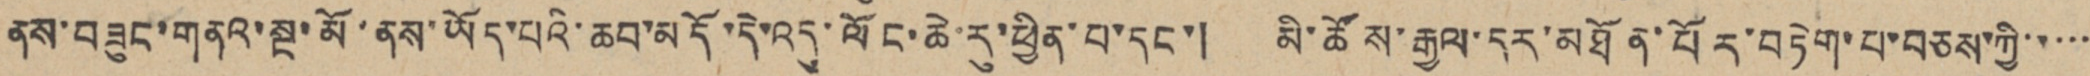ནས་བཟུང་གནའ་སྔ་མོ་ནས་ཡོད་པའི་ཆབ་མདོ་དེ་འདུ་ལོང་ཆེ་རུ་ཕྱིན་པ་དང་། མི་ཚོས་རྒྱལ་དར་མཐོན་པོར་བཏེག་པ་བཅས་ཀྱི་་་་་
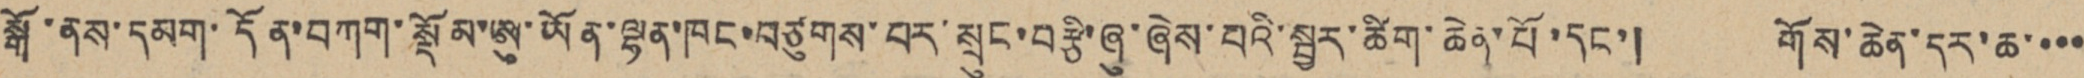སྒོ་ནས་དམག་དོན་བཀག་སྡོམ་ཨུ་ཡོན་ལྷན་ཁང་བཙུགས་པར་སྲུང་བརྩི་ཞུ་ཞེས་པའི་སྦྱར་ཚིག་ཆེན་པོ་དང་། གོས་ཆེན་དར་ཆ་་་་
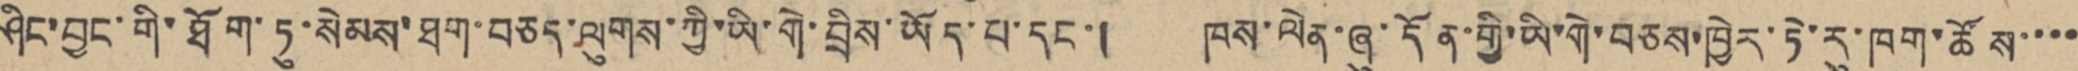ཤིང་བྱང་གི་ཐོག་ཏུ་སེམས་ཐག་བཅད་ལུགས་ཀྱི་ཡི་གེ་བྲིས་ཡོད་པ་དང་། ཁས་ལེན་ཞུ་དོན་གྱི་ཡི་གེ་བཅས་ཁྱེར་ཏེ་རུ་ཁག་ཚོས་་་་
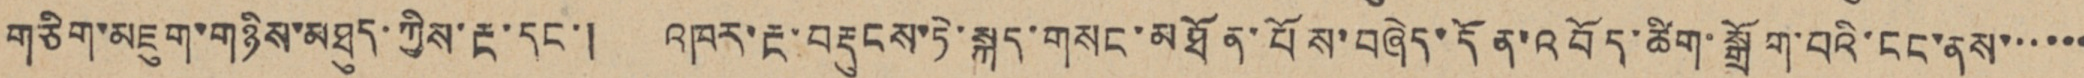གཅིག་མཇུག་གཉིས་མཐུད་ཀྱིས་རྔ་དང་། འཁར་རྔ་བརྡུངས་ཏེ་སྐད་གསང་མཐོན་པོས་བཞེད་དོན་འབོད་ཚིག་སྒྲོག་པའི་ངང་ནས་་་་་་
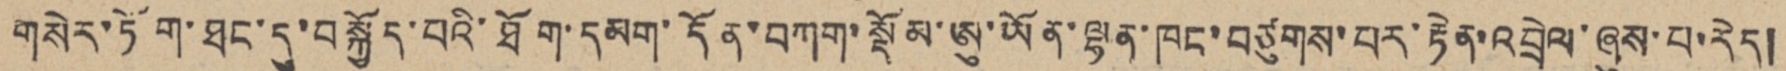གསེར་ཏོག་ཐང་དུ་བསྐྱོད་པའི་ཐོག་དམག་དོན་བཀག་སྡོམ་ཨུ་ཡོན་ལྷན་ཁང་བཙུགས་པར་རྟེན་འབྲེལ་ཞུས་པ་རེད།
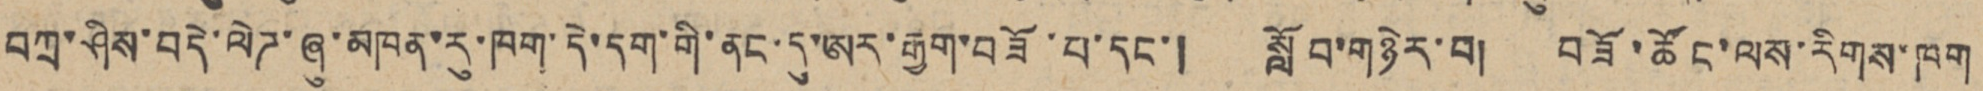བཀྲ་ཤིས་བདེ་ལེཊ་ཞུ་མཁན་རུ་ཁག་དེ་དག་གི་ནང་དུ་ཨར་རྒྱག་བཟོ་པ་དང་། སློབ་གཉེར་བ། བཟོ་ཚོང་ལས་རིགས་ཁག
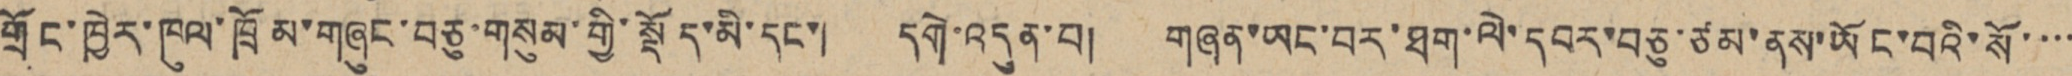གྲོང་ཁྱེར་ཁུལ་ཁྲོམ་གཞུང་བཅུ་གསུམ་གྱི་སྡོད་མི་དང་། དགེ་འདུན་བ། གཞན་ཡང་བར་ཐག་ལེ་དབར་བཅུ་ཙམ་ནས་ཡོང་བའི་སོ་་་་
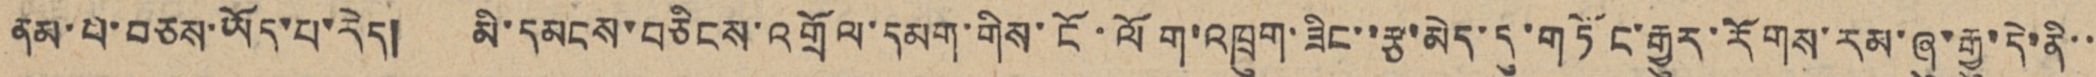ནམ་པ་བཅས་ཡོད་པ་རེད། མི་དམངས་བཅིངས་འགྲོལ་དམག་གིས་ངོ་ལོག་འཁྲུག་ཟིང་་རྩ་མེད་དུ་གཏོང་རྒྱུར་རོགས་རམ་ཞུ་རྒྱུ་དེ་ནི་་
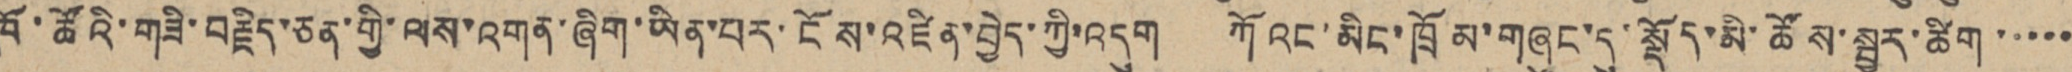ཁོ་ཚོའི་གཟི་བརྗིད་ཅན་གྱི་ལས་འགན་ཞིག་ཡིན་པར་ངོས་འཛིན་བྱེད་ཀྱི་འདུག ཀོའང་མིང་ཁྲོམ་གཞུང་དུ་སྡོད་མི་ཚོས་སྦྱར་ཚིག་་་་་
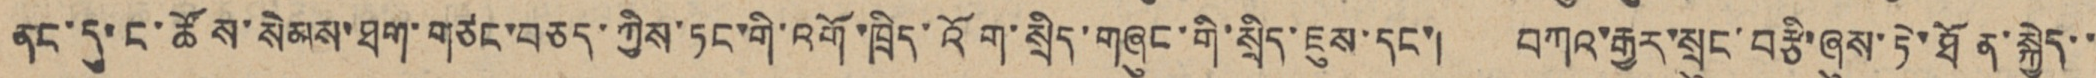ནང་དུ་ང་ཚོས་སེམས་ཐག་གཙང་བཅད་ཀྱིས་ཏང་གི་འགོ་ཁྲིད་འོག་སྲིད་གཞུང་གི་སྲིད་ཇུས་དང་། བཀའ་རྒྱར་སྲུང་བརྩི་ཞུས་ཏེ་ཐོན་སྐྱེད་་
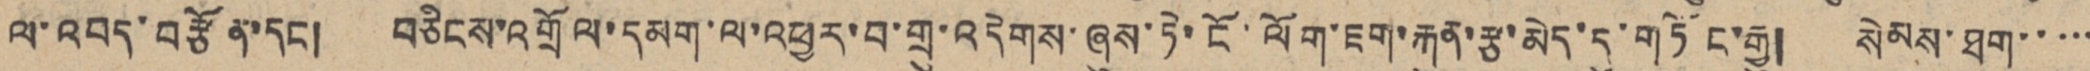ལ་འབད་བརྩོན་དང། བཅིངས་འགྲོལ་དམག་ལ་འཕྱར་བ་གྲུ་འདེགས་ཞུས་ཏེ་ངོ་ལོག་ཇག་རྐུན་རྩ་མེད་དུ་གཏོང་རྒྱུ། སེམས་ཐག་་་་་
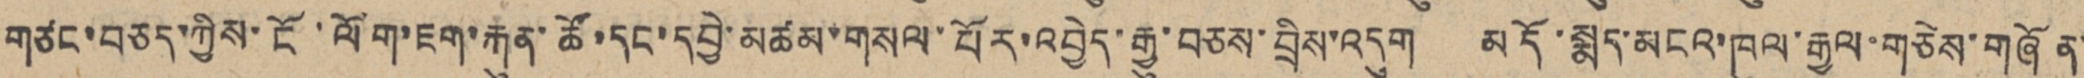གཙང་བཅད་ཀྱིས་ངོ་ལོག་ཇག་རྐུན་ཚོ་དང་དབྱེ་མཚམ་གསལ་པོར་འབྱེད་རྒྱུ་བཅས་བྲིས་འདུག མདོ་སྨད་མངའ་ཁུལ་རྒྱལ་གཅེས་གཞོན་
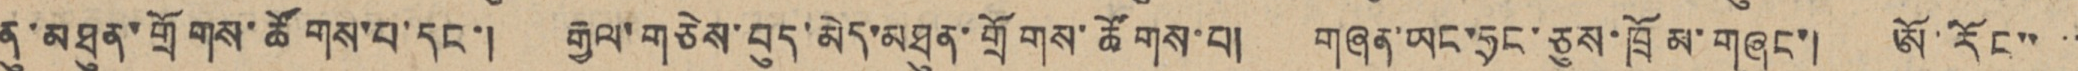ནུ་མཐུན་གྲོགས་ཚོགས་པ་དང་། རྒྱལ་གཅེས་བུད་མེད་མཐུན་གྲོགས་ཚོགས་པ། གཞན་ཡང་ཧྲང་ཅུས་ཁྲོམ་གཞུང་། ཨོ་རོང་་་་
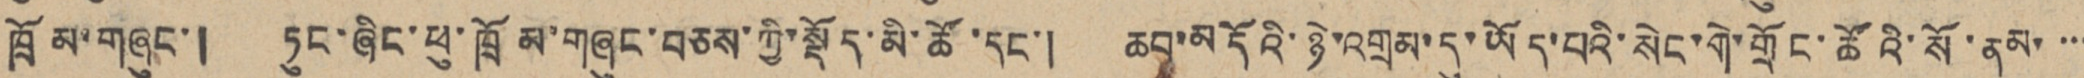ཁྲོམ་གཞུང་། ཏུང་ཞིང་ཕུ་ཁྲོམ་གཞུང་བཅས་ཀྱི་སྡོད་མི་ཚོ་དང་། ཆབ་མདོའི་ཉེ་འགྲམ་དུ་ཡོད་པའི་སེང་གེ་གྲོང་ཚོའི་སོ་ནམ་་་་
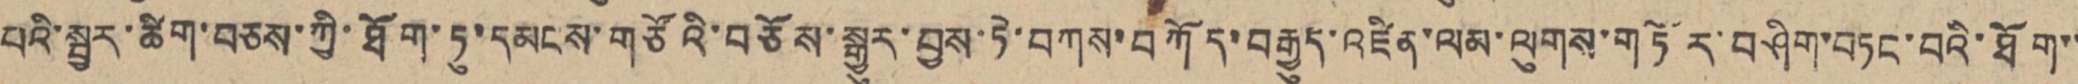པའི་སྦྱར་ཚིག་བཅས་ཀྱི་ཐོག་ཏུ་དམངས་གཙོའི་བཅོས་སྒྱུར་བྱས་ཏེ་བཀས་བཀོད་བརྒྱུད་འཛིན་ལམ་ལུགས་གཏོར་བཤིག་བཏང་བའི་ཐོག་་
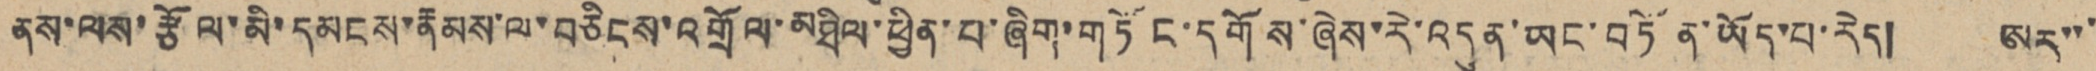ནས་ལས་རྩོལ་མི་དམངས་རྣམས་ལ་བཅིངས་འགྲོལ་མཐིལ་ཕྱིན་པ་ཞིག་གཏོང་དགོས་ཞེས་རེ་འདུན་ཡང་བཏོན་ཡོད་པ་རེད། ཨར་་་
